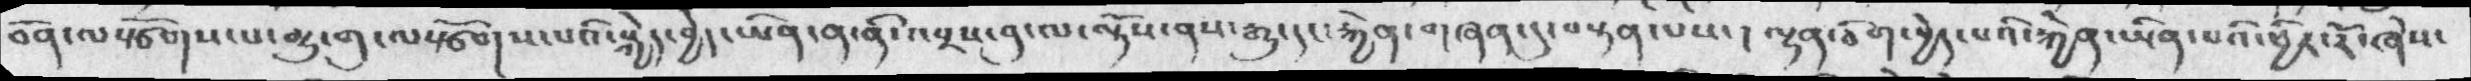བོན་ལསྩོགས་པ་མྱུ་གུ་ལསྩོགས་པའི་སྐྱེད་བྱེད་ཡིན་ན་ནི་འབྲས་བུ་ལ་ལྟོས་ནས་རྒྱུ་དང་རྐྱེན་གཞན་དུ་བསྟན་པས་། ལྷན་ཅིག་བྱེད་པའི་རྐྱེན་ཡིན་པའི་ཕྱིར་རོ་ཞེས་
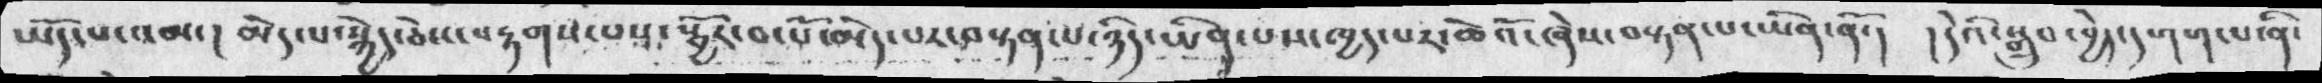ཡོད་པ་འམ་། མེད་པ་སྐྱེད་ཅེས་བརྟགས་པས་སྦྱོར་བ་པོ་མེད་པར་བསྟན་པ་ཉིད་ཡིན་པས་ཁྱད་པར་ཆེའོ་ཞེས་བསྟན་པ་ཡིན་ནོ་།  །དེའི་སྒྲུབ་བྱེད་དགག་པ་ནི་
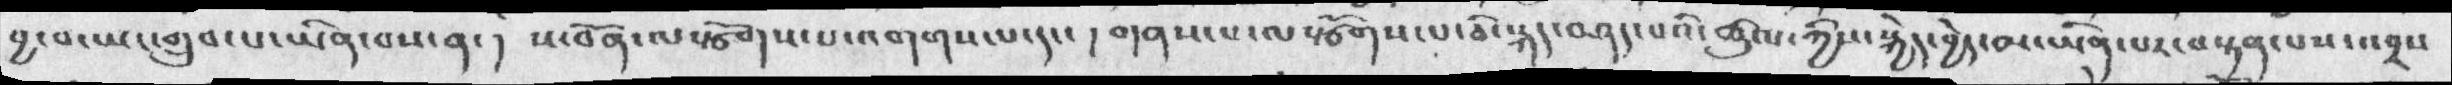བྱ་བ་ཡང་གྲུབ་པ་ཡིན་བས་ན་།  ས་བོན་ལསྩོགས་པ་འགགས་པ་དང་ ། གནས་པ་ལསྩོགས་པ་ཅི་སྐད་བཤད་པའི་ཚུལ་ཀྱིས་སྐྱེད་བྱེད་མ་ཡིན་པར་བསྟན་པས་འབྲས
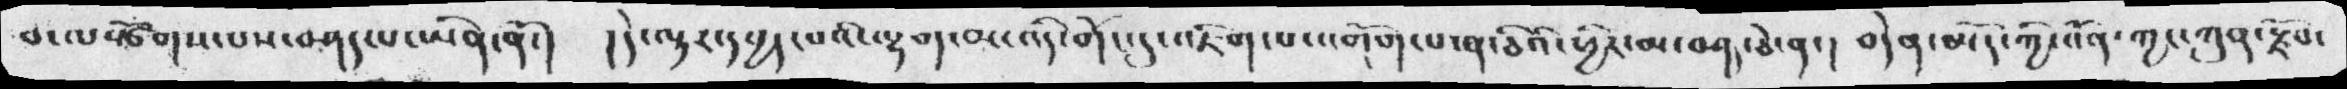བ་ལསྩོགས་པས་བཤད་པ་ཡིན་ནོ་།  །དེ་ལྟར་དཔྱད་པའི་ལྷག་མ་འདི་གོང་དུ་འཇིག་པ་འགོག་པ་ན་ཅིའི་ཕྱིར་མ་བཤད་ཅེ་ན་། བདེན་མེད་ཀྱི་འོན་ཀྱང་ཀུན་རྫོབ་
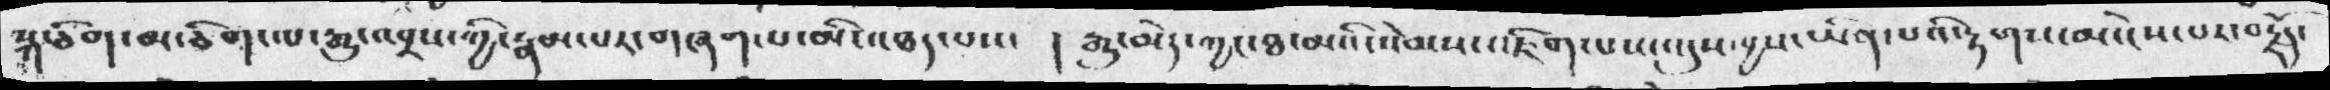སྐ་ཅིག་མ་ཅིག་ལ་རྒྱུ་འབྲས་ཀྱི་རྣམ་པར་གཞ་པ་མི་འཐད་པས་ །རྒྱུ་མེད་ཀྱང་ཐ་མའི་སེམས་འཇིག་པས་འདུས་བྱས་ཡིན་པའི་རྟགས་མ་ངེས་པར་བརྗོད་
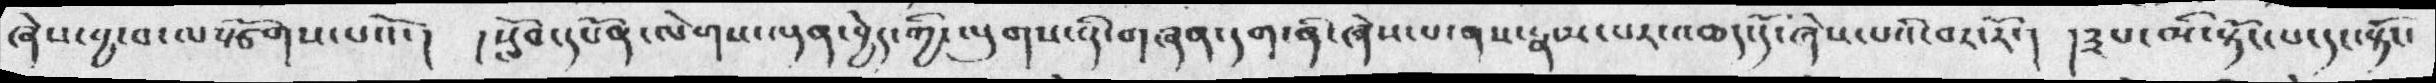ཞེས་བྱ་བ་ལསྩོགས་པའོ་། །སློབ་དཔོན་ལེགས་ལྡན་བྱེད་ཀྱི་ལུགས་ནི་གཞན་དག་ནི་ཞེས་པ་ནས་རྣམ་པར་འཆད་དོ་ཞེས་པའི་བར་རོ་། །༣པ་མི་སྟོང་པ་དང་སྟོང་
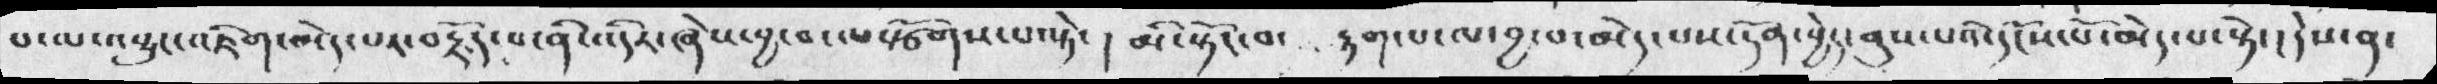པ་ལ་འབྱུང་འཇིག་མེད་པར་བརྗོད་པ་ནི་འདིར་ཞེས་བྱ་བ་ལསྩོགས་པ་སྟེ་ ། མི་སྟོང་བ་  རྟག་པ་ལ་བྱ་བ་མེད་པས་དོན་བྱེད་ནུས་པའི་དངོས་པོ་མེད་པ་སྟེ་། དེས་ན་
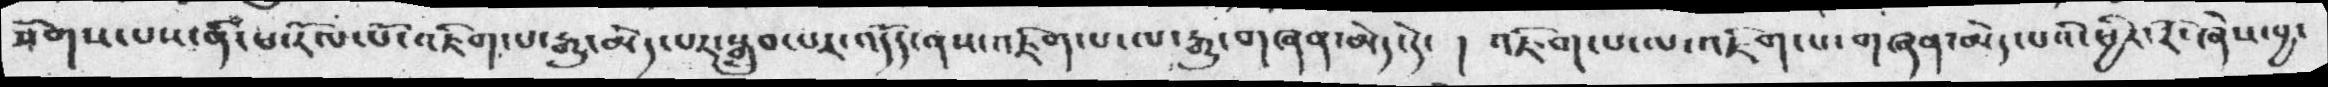སོགས་པས་ནི་ཕ་རོལ་པོ་འཇིག་པ་རྒྱུ་མེད་པར་སྒྲུབ་པར་འདོད་ནས་འཇིག་པ་ལ་རྒྱུ་གཞན་མེད་དེ་།  འཇིག་པ་ལ་འཇིག་པ་གཞན་མེད་པའི་ཕྱིར་རོ་ཞེས་བྱ་
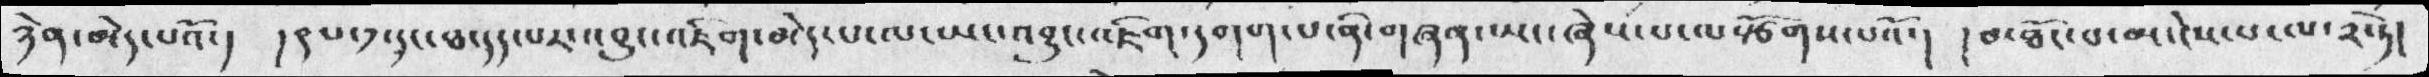ཉེན་མེད་པའོ་།  །༩པ་༡་དང་ཐ་དད་པར་འབྱུང་འཇིག་མེད་པ་ལ་ཡང་འབྱུང་འཇིག་དགག་པ་ནི་གཞན་ཡང་ཞེས་པ་ལསྩོགས་པའོ་། །མཐོང་པ་མ་ངེས་པ་ལ་༢་ཏེ།
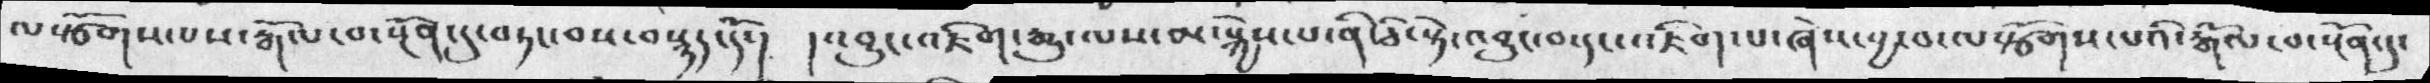ལསྩོགས་པས་རྒོལ་བ་སྔོན་དུ་བཏང་བས་བསྙད་དོ་། །འབྱུང་འཇིག་རྒྱུ་ལས་མ་སྐྱེས་པ་ནི་ཅི་སྟེ་འབྱུང་བ་དང་འཇིག་པ་ཞེས་བྱ་བ་ལསྩོགས་པའི་རྒོལ་བ་སྔོན་དུ་
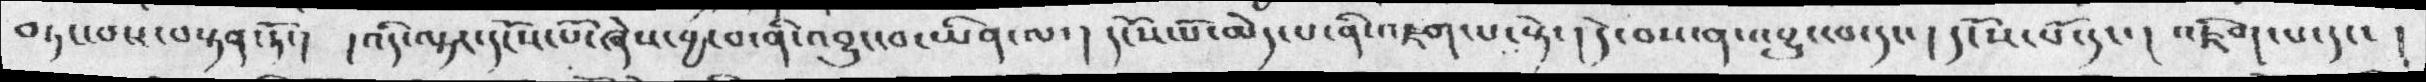བཏང་བས་བསྟན་ཏོ་། །འདི་ལྟར་དངོས་པོ་ཞེས་བྱ་བ་ནི་འབྱུང་བ་ཡིན་ལ་།  དངོས་པོ་མེད་པ་ནི་འཇག་པ་སྟེ་། དེ་བས་ན་འབྱུང་བ་དང་། དངོས་པོ་དང་། འཇིག་པ་དང་ །
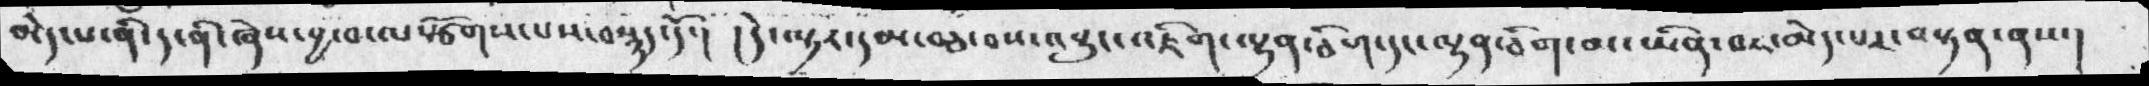མེད་པ་ནི་ད་ནི་ཞེས་བྱ་བ་ལསྩོགས་པས་བསྙད་དོ་།  །དེ་ལྟར་དམ་བཅ་བས་འབྱུང་འཇིག་ལྷན་ཅིག་དང་ལྷན་ཅིག་མ་ཡིན་བར་མེད་པར་བསྟན་ནས་།
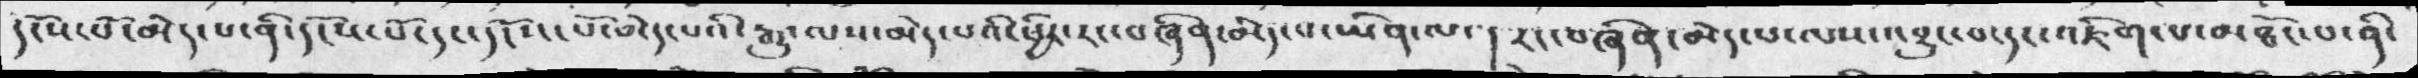དངོས་པོ་མེད་པ་ནི་དངོས་པོ་དང་དངོས་པོ་མེད་པའི་རྒྱུ་ལས་མེད་པའི་ཕྱིར་རང་བཞིན་མེད་པ་ཡིན་ལ་ ། རང་བཞིན་མེད་པ་ལས་འབྱུང་བ་དང་འཇིག་པ་མཐོང་བ་ནི་
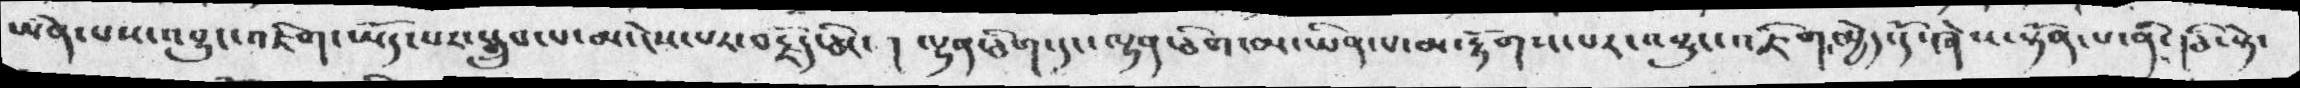ཡིན་པས་འབྱུང་འཇིག་ཡོད་པར་སྒྲུབ་པ་མ་ངེས་པར་བརྗོད་ཅིང་  ། ལྷན་ཅིག་དང་ལྷན་ཅིག་མ་ཡིན་པ་མ་རྟོགས་པར་འབྱུང་འཇིག་བྱེད་དོ་ཞེས་སྟོན་པ་ནི་ ། ཅི་སྟེ་
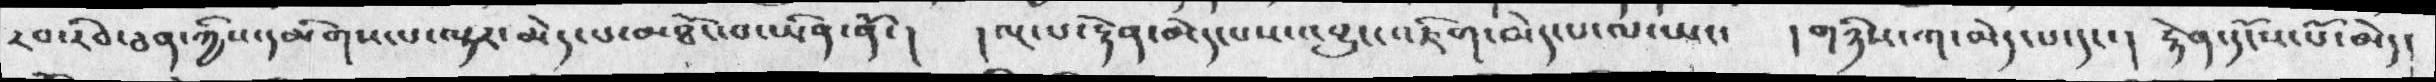རབ་རིབ་ཅན་ཀྱིས་དམིགས་པ་ལྟར་མེད་པ་མཐོང་བ་ཡིན་ནོ་།    ། ལྔ་པ་རྟེན་མེད་པས་འབྱུང་འཇིག་མེད་པ་ལ་ཡང་     །གཉིས་ག་མེད་པ་དང་། རྟེན་དངོས་པོ་མེད།
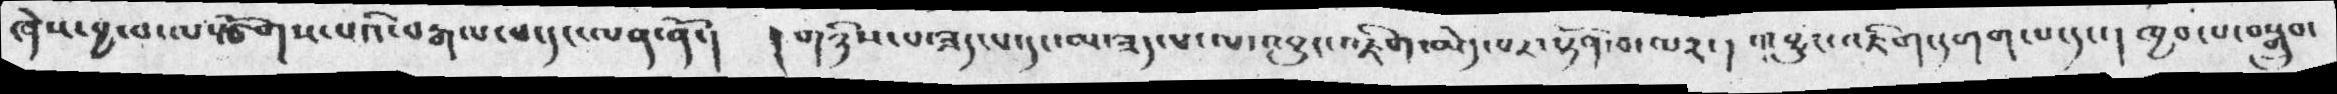ཞེས་བྱ་བ་ལསྩོགས་པའི་བརྒལ་བ་དང་ལན་ནོ་།  ། གཉིས་པ་ཟད་པ་དང་མ་ཟད་པ་ལ་འབྱུང་འཇིག་མེད་པར་སྟོན་པ་ལ༢་། །།བྱུང་འཇིག་དགག་པ་དང་།  ཁྱབ་པ་བསྒྲུབ་
